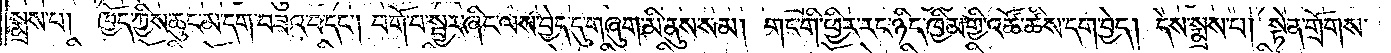སྨྲས་པ། ཁྱོད་ཀྱིས་ཆུང་མ་དག་བཟའ་བ་དང༌། བགོ་བ་སྦྱར་ཞིང་ལས་བྱེད་དུ་གཞུག་མི་ནུས་སམ། གང་གི་ཕྱིར་རང་ཉིད་ཁྱིམ་གྱི་འཚོ་ཚིས་དག་བྱེད། དེས་སྨྲས་པ། སྟེན་གྲོགས་
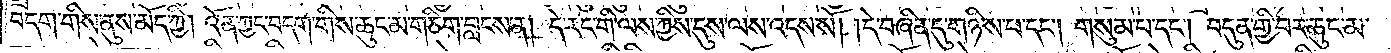བདག་གིས་ནུས་མོད་ཀྱི། འོན་ཀྱང་བདག་གིས་ཆུང་མ་གཅིག་བླངས་ན། དེ་རང་གི་ལས་ཀྱིས་དུས་ལས་འདས་སོ། །དེ་བཞིན་དུ་གཉིས་པ་དང༌། གསུམ་པ་དང༌། བདུན་གྱི་བར་ཆུང་མ་
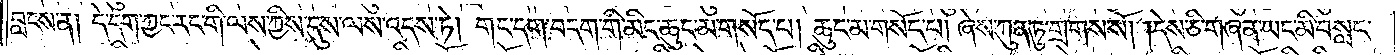བླངས་ན། དེ་དག་ཀྱང་རང་གི་ལས་ཀྱིས་དུས་ལས་འདས་ཏེ། གང་དག་བདག་གི་མིང་ཆུང་མ་གསོད་པ། ཆུང་མ་གསོད་པ། ཞེས་ཀུན་ཏུ་གྲགས་སོ། །དེས་ཅི་གཞན་ཡང་མི་བསླང་
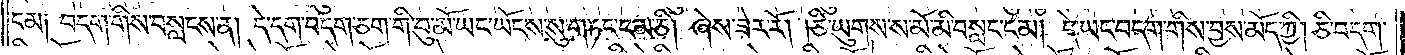ངམ། བདག་གིས་བསླངས་ན། དེ་དག་བདག་ཅག་གི་བུ་མོ་ཡང་ཡོངས་སུ་གཏང་ངམ་ཅི། ཞེས་ཟེར་རོ། །ཅི་ཡུགས་ས་མོ་མི་བསླང་ངམ། དེ་ཡང་བདག་གིས་བྱས་མོད་ཀྱི། ཅི་བདག་
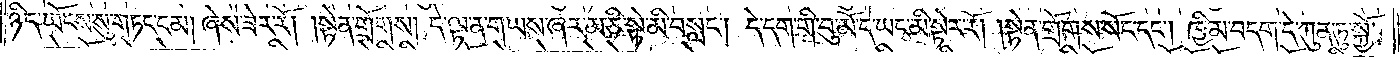ཉིད་ཡོངས་སུ་གཏང་ངམ། ཞེས་ཟེར་རོ། །སྟེན་གྲོགས། དེ་ལྟ་ན་གཡས་ཞར་མ་ཅི་སྟེ་མི་བསླང༌། དེ་དག་གི་བུ་མོ་དེ་ཡང་མི་སྟེར་རོ། །སྟེན་གྲོགས་སོང་དང༌། ཁྱིམ་བདག་དེ་ཀུན་ཏུ་སྐྱོ་
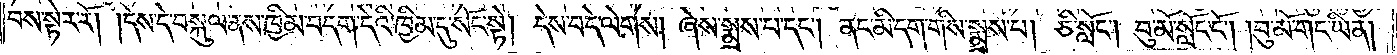བས་སྟེར་རོ། །དེས་དེ་བསྐུལ་ནས་ཁྱིམ་བདག་དེའི་ཁྱིམ་དུ་སོང་སྟེ། དེས་བདེ་ལེགས། ཞེས་སྨྲས་པ་དང༌། ནང་མི་དག་གིས་སྨྲས་པ། ཅི་སློང༌། བུ་མོ་སློང་ངོ༌། །བུ་མོ་གང་ཡིན།
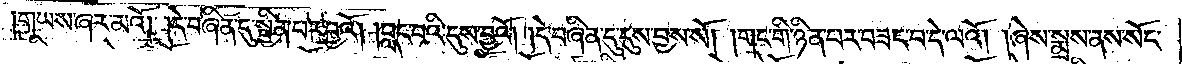གཡས་ཞར་མའོ། །དེ་བཞིན་དུ་སྦྱིན་པར་བྱའོ། །བླང་བའི་དུས་བྱའོ། །དེ་བཞིན་དུ་དུས་བྱས་སོ། །གང་གི་ཉིན་པར་བཟང་བ་དེ་ལའོ། །ཞེས་སྨྲས་ནས་སོང་
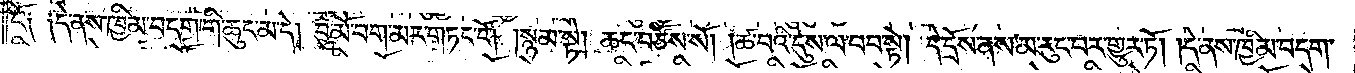ངོ༌། །དེ་ནས་ཁྱིམ་བདག་གི་ཆུང་མ་དེ། བུ་མོ་བག་མར་གཏང་ངོ༌། །སྙམ་སྟེ། ཆང་བཙོས་སོ། །ཚ་བའི་དུས་ལ་བབ་སྟེ། དེ་དྲོས་ནས་མ་རུང་བར་གྱུར་ཏོ། །དེ་ནས་ཁྱིམ་བདག་
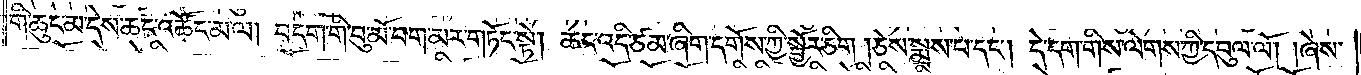གི་ཆུང་མ་དེས་ཆང་འཚོང་མ་ལ། བདག་གི་བུ་མོ་བག་མར་གཏོང་སྟེ། ཆང་འདི་ཙམ་ཞིག་དགོས་ཀྱི་སྦྱོར་ཅིག །ཅེས་སྨྲས་པ་དང༌། དེ་དག་གིས་ལེགས་ཀྱི་དབུལ་ལོ། །ཞེས་
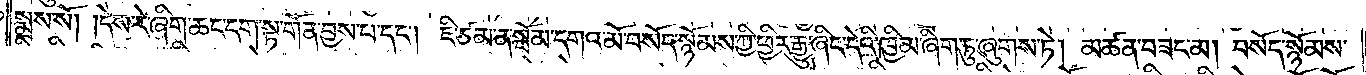སྨྲས་སོ། །དེས་རེ་ཞིག་ཆང་དག་སྟ་གོན་བྱས་པ་དང༌། ཇི་ཙམ་ན་སྦོམ་དགའ་མོ་བསོད་སྙོམས་ཀྱི་ཕྱིར་རྒྱུ་ཞིང་དེའི་ཁྱིམ་ཞིག་ཏུ་ཞུགས་ཏེ། མཚན་བཟང་མ། བསོད་སྙོམས་
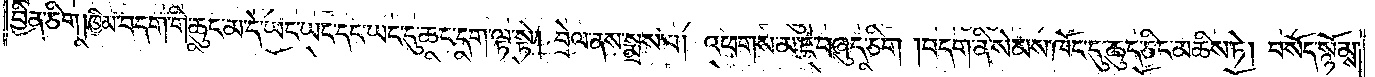བྱིན་ཅིག །ཁྱིམ་བདག་གི་ཆུང་མ་དེ་ཡང་ཡང་དང་ཡང་དུ་ཆང་དག་ལྟ་སྟེ། བྲེལ་ནས་སྨྲས་པ། འཕགས་མ་ཇེ་བཞུད་ཅིག །བདག་ནི་སེམས་ཁོང་དུ་ཆུད་ཅིང་མཆིས་ཏེ། བསོད་སྙོམས་
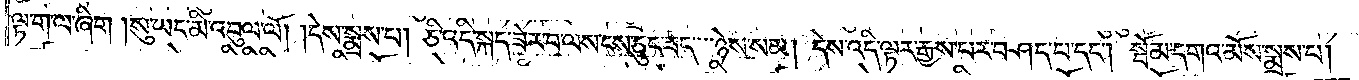ལྟ་ག་ལ་ཞིག །སུ་ཡང་མི་འབུལ་ལོ། །དེས་སྨྲས་པ། ཅི་འདི་སྐད་ཟེར་བ་ལས་ངས་ཅུང་ཟད་ཉེས་སམ། དེས་འདི་ལྟར་རྒྱས་པར་བཤད་པ་དང༌། སྦོམ་དགའ་མོས་སྨྲས་པ།
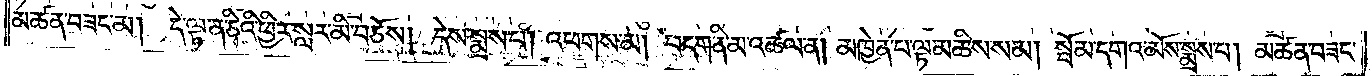མཚན་བཟང་མ། དེ་ལྟ་ན་ཅིའི་ཕྱིར་སླར་མི་བཅོས། དེས་སྨྲས་པ། འཕགས་མ། བདག་ནི་མ་འཚལ་ན། མཁྱེན་པ་ལྟ་མཆིས་སམ། སྦོམ་དགའ་མོས་སྨྲས་པ། མཚན་བཟང་
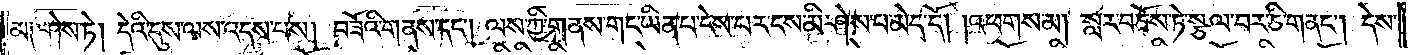མ། ཤེས་ཏེ། དེའི་དུས་ལས་འདས་པས། བཟོའི་གནས་དང༌། ལས་ཀྱི་གནས་གང་ཡིན་པ་ངེས་པར་ངས་མི་ཤེས་པ་མེད་དོ། །འཕགས་མ། སླར་བཅོས་ཏེ་སྩལ་བར་ཅི་གནང༌། དེས་
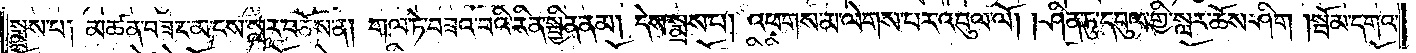སྨྲས་པ། མཚན་བཟང་མ་ངས་སླར་བཅོས་ན། གལ་ཏེ་བཟའ་བའི་རིན་སྦྱིན་ནམ། དེས་སྨྲས་པ། འཕགས་མ་ལེགས་པར་འབུལ་ལོ། །ཤིན་ཏུ་དབུལ་གྱི་སླར་ཆོས་ཤིག །སྦོམ་དགའ་
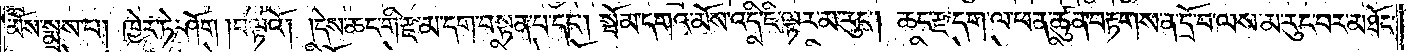མོས་སྨྲས་པ། ཁྱེར་ཏེ་ཤོག །བལྟའོ། །དེས་ཆང་གི་རྫ་མ་དག་བསྟན་པ་དང༌། སྦོམ་དགའ་མོས་འདི་ཇི་ལྟར་མ་རུང༌། ཆང་རྫ་དག་ལ་ཕན་ཚུན་བརྟགས་ན་དྲོ་བ་ལས་མ་རུང་བར་མཐོང་
